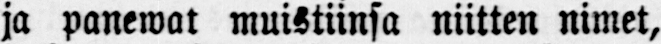ja panewat muistiinsa niitten nimet,
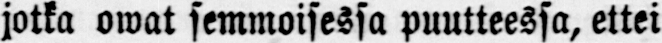jotka owat semmoisessa puutteessa, ettei
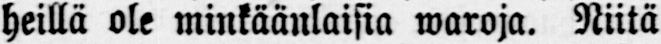heillä ole minkäänlaisia waroja. Niitä
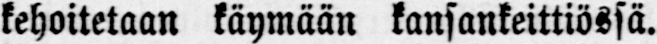kehoitetaan käymään kansankeittiössä.
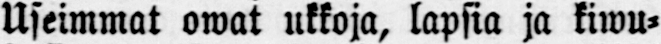Useimmat owat ukkoja, lapsia ja kiwu-
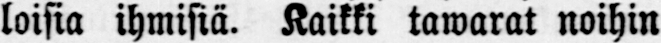loisia ihmisiä. Kaikki tawarat noihin
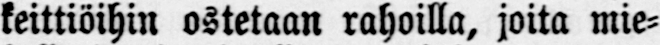keittiöihin ostetaan rahoilla, joita mie-
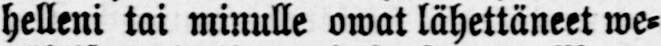helleni tai minulle owat lähettäneet we-
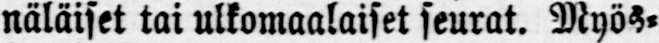näläiset tai ulkomaalaiset seurat. Myös-
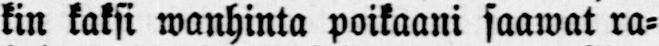kin kaksi wanhinta poikaani saawat ra-
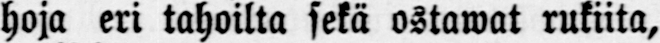hoja eri tahoilta sekä ostawat rukiita,
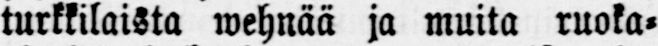turkkilaista wehnää ja muita ruoka-
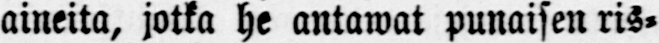aineita, jotka he antawat punaisen ris-
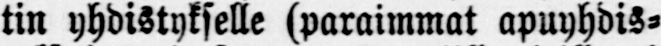tin yhdistykselle (paraimmat apuyhdis-
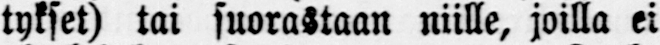tykset) tai suorastaan niille, joilla ei
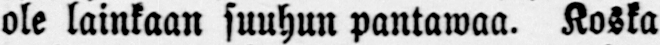ole lainkaan suuhun pantawaa. Koska
